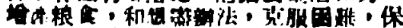增產粮食，和想盡辦法，克服困難，保
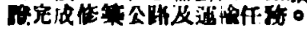證完成修築公路及運輸任務。
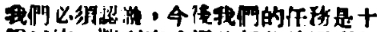我們必須認識，今後我們的任務是十
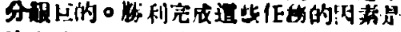分艱巨的。勝利完成這些任務的因素是
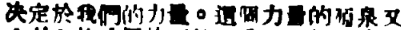決定於我們的力量。這個力量的源泉又
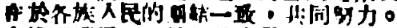在於各族人民的團結一致，共同努力。
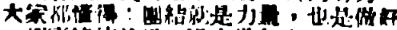大家都懂得：團結就是力量，也是做好
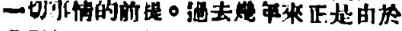一切事情的前提。過去幾年來正是由於
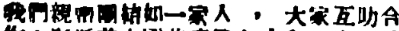我們親密團結如一家人 ，大家互助合
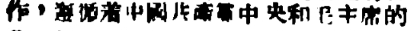作，遵循着中國共產黨中央和毛主席的
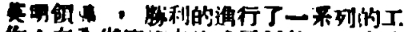英明領導 ，勝利的進行了一系列的工
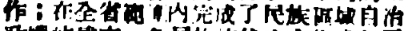作；在全省範圍內完成了民族區域自治
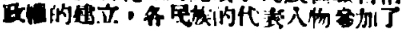政權的建立，各民族的代表人物參加了
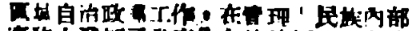區域自治政策工作，在管理各民族內部
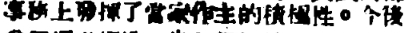事務上發揮了當家做主的積極性。今後
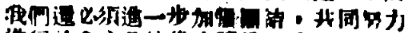我們還必須進一步加強團結，共同努力
